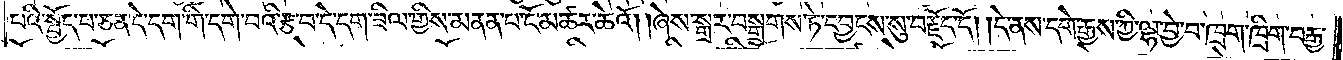པའི་སྤྱོད་པ་ཅན་དེ་དག་གི་དགེ་བའི་རྩ་བ་དེ་དག་ཟིལ་གྱིས་མནན་པ་ངོ་མཚར་ཆེའོ། །ཞེས་སྒྲར་བསྒྲགས་ཏེ་དབྱངས་སུ་བརྗོད་དོ། །དེ་ནས་དགེ་རྒྱས་ཀྱི་ལྷ་བྱེ་བ་ཁྲག་ཁྲིག་བརྒྱ་
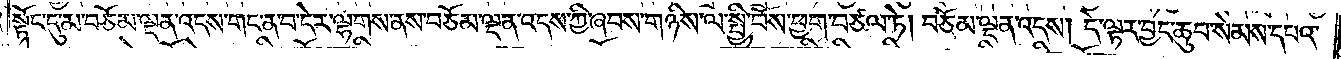སྟོང་དུ་མ་བཅོམ་ལྡན་འདས་གང་ན་བ་དེར་ལྷགས་ནས་བཅོམ་ལྡན་འདས་ཀྱི་ཞབས་གཉིས་ལ་སྤྱི་བོས་ཕྱག་བཙལ་ཏེ། བཅོམ་ལྡན་འདས། དེ་ལྟར་བྱང་ཆུབ་སེམས་དཔའ་
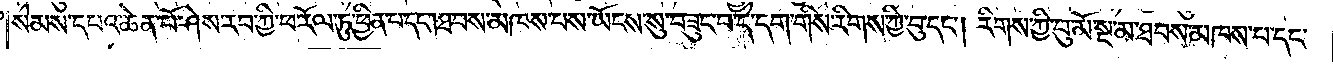སེམས་དཔའ་ཆེན་པོ་ཤེས་རབ་ཀྱི་ཕ་རོལ་ཏུ་ཕྱིན་པ་དང༌། ཐབས་མཁས་པས་ཡོངས་སུ་བཟུང་བ་དེ་དག་གིས་རིགས་ཀྱི་བུ་དང༌། རིགས་ཀྱི་བུ་མོ་སྔ་མ་ཐབས་མཁས་པ་དང་
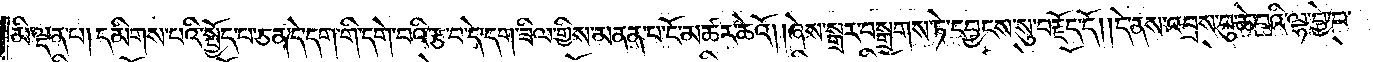མི་ལྡན་པ། དམིགས་པའི་སྤྱོད་པ་ཅན་དེ་དག་གི་དགེ་བའི་རྩ་བ་དེ་དག་ཟིལ་གྱིས་མནན་པ་ངོ་མཚར་ཆེའོ། །ཞེས་སྒྲར་བསྒྲགས་ཏེ་དབྱངས་སུ་བརྗོད་དོ། །དེ་ནས་འབྲས་བུ་ཆེ་བའི་ལྷ་བྱེ་བ་
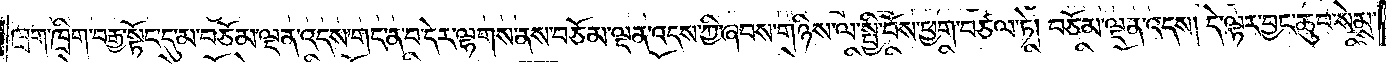ཁྲག་ཁྲིག་བརྒྱ་སྟོང་དུ་མ་བཅོམ་ལྡན་འདས་གང་ན་བ་དེར་ལྷགས་ནས་བཅོམ་ལྡན་འདས་ཀྱི་ཞབས་གཉིས་ལ་སྤྱི་བོས་ཕྱག་བཙལ་ཏེ། བཅོམ་ལྡན་འདས། དེ་ལྟར་བྱང་ཆུབ་སེམས་
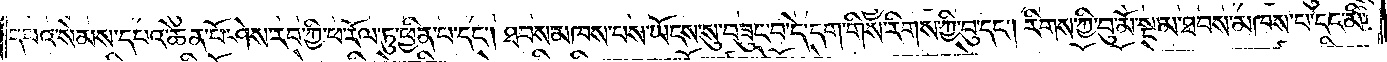དཔའ་སེམས་དཔའ་ཆེན་པོ་ཤེས་རབ་ཀྱི་ཕ་རོལ་ཏུ་ཕྱིན་པ་དང༌། ཐབས་མཁས་པས་ཡོངས་སུ་བཟུང་བ་དེ་དག་གིས་རིགས་ཀྱི་བུ་དང༌། རིགས་ཀྱི་བུ་མོ་སྔ་མ་ཐབས་མཁས་པ་དང་མི་
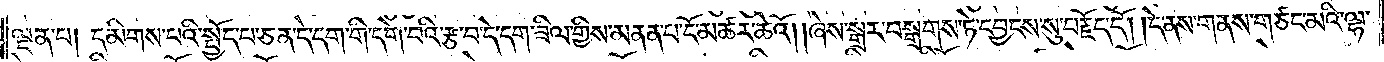ལྡན་པ། དམིགས་པའི་སྤྱོད་པ་ཅན་དེ་དག་གི་དགེ་བའི་རྩ་བ་དེ་དག་ཟིལ་གྱིས་མནན་པ་ངོ་མཚར་ཆེའོ། །ཞེས་སྒྲར་བསྒྲགས་ཏེ་དབྱངས་སུ་བརྗོད་དོ། །དེ་ནས་གནས་གཙང་མའི་ལྷ་
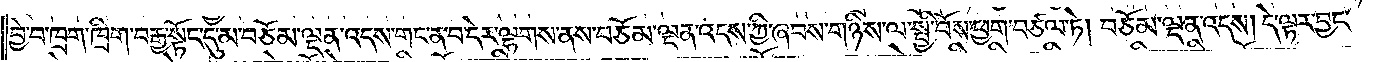བྱེ་བ་ཁྲག་ཁྲིག་བརྒྱ་སྟོང་དུ་མ་བཅོམ་ལྡན་འདས་གང་ན་བ་དེར་ལྷགས་ནས་བཅོམ་ལྡན་འདས་ཀྱི་ཞབས་གཉིས་ལ་སྤྱི་བོས་ཕྱག་བཙལ་ཏེ། བཅོམ་ལྡན་འདས། དེ་ལྟར་བྱང་
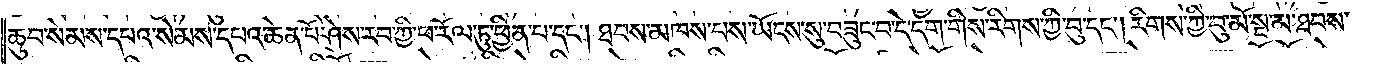ཆུབ་སེམས་དཔའ་སེམས་དཔའ་ཆེན་པོ་ཤེས་རབ་ཀྱི་ཕ་རོལ་ཏུ་ཕྱིན་པ་དང༌། ཐབས་མཁས་པས་ཡོངས་སུ་བཟུང་བ་དེ་དག་གིས་རིགས་ཀྱི་བུ་དང༌། རིགས་ཀྱི་བུ་མོ་སྔ་མ་ཐབས་
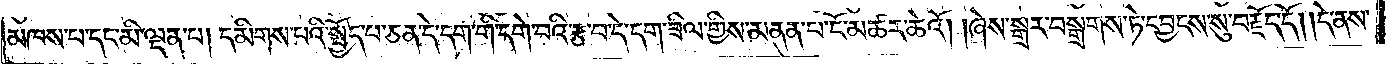མཁས་པ་དང་མི་ལྡན་པ། དམིགས་པའི་སྤྱོད་པ་ཅན་དེ་དག་གི་དགེ་བའི་རྩ་བ་དེ་དག་ཟིལ་གྱིས་མནན་པ་ངོ་མཚར་ཆེའོ། །ཞེས་སྒྲར་བསྒྲགས་ཏེ་དབྱངས་སུ་བརྗོད་དོ། །དེ་ནས་
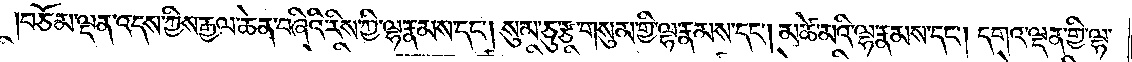བཅོམ་ལྡན་འདས་ཀྱིས་རྒྱལ་ཆེན་བཞིའི་རིས་ཀྱི་ལྷ་རྣམས་དང༌། སུམ་ཅུ་རྩ་གསུམ་གྱི་ལྷ་རྣམས་དང༌། མཚེ་མའི་ལྷ་རྣམས་དང༌། དགའ་ལྡན་གྱི་ལྷ་
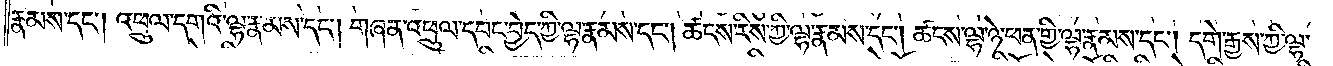རྣམས་དང༌། འཕྲུལ་དགའི་ལྷ་རྣམས་དང༌། གཞན་འཕྲུལ་དབང་བྱེད་ཀྱི་ལྷ་རྣམས་དང༌། ཚངས་རིས་ཀྱི་ལྷ་རྣམས་དང༌། ཚངས་ལྷ་ཉེ་ཕན་གྱི་ལྷ་རྣམས་དང༌། དགེ་རྒྱས་ཀྱི་ལྷ་
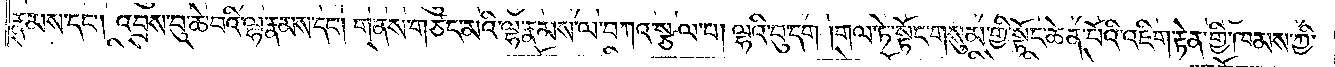རྣམས་དང༌། འབྲས་བུ་ཆེ་བའི་ལྷ་རྣམས་དང༌། གནས་གཙང་མའི་ལྷ་རྣམས་ལ་བཀའ་སྩལ་པ། ལྷའི་བུ་དག །གལ་ཏེ་སྟོང་གསུམ་གྱི་སྟོང་ཆེན་པོའི་འཇིག་རྟེན་གྱི་ཁམས་ཀྱི་
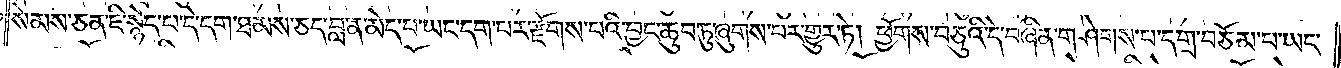སེམས་ཅན་ཇི་སྙེད་པ་དེ་དག་ཐམས་ཅད་བླ་ན་མེད་པ་ཡང་དག་པར་རྫོགས་པའི་བྱང་ཆུབ་ཏུ་ཞུགས་པར་གྱུར་ཏེ། ཕྱོགས་བཅུའི་དེ་བཞིན་གཤེགས་པ་དགྲ་བཅོམ་པ་ཡང་
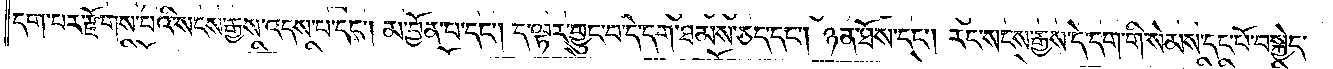དག་པར་རྫོགས་པའི་སངས་རྒྱས་འདས་པ་དང༌། མ་བྱོན་པ་དང༌། ད་ལྟར་བྱུང་བ་དེ་དག་ཐམས་ཅད་དང༌། ཉན་ཐོས་དང༌། རང་སངས་རྒྱས་དེ་དག་གིས་སེམས་དང་པོ་བསྐྱེད་
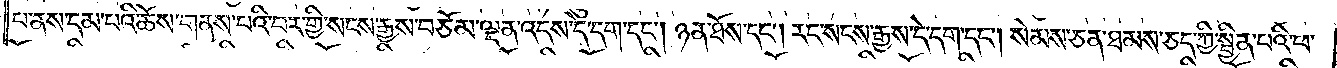པ་ནས་དམ་པའི་ཆོས་གནས་པའི་བར་གྱི་སངས་རྒྱས་བཅོམ་ལྡན་འདས་དེ་དག་དང༌། ཉན་ཐོས་དང༌། རང་སངས་རྒྱས་དེ་དག་དང༌། སེམས་ཅན་ཐམས་ཅད་ཀྱི་སྦྱིན་པའི་ཕ་
